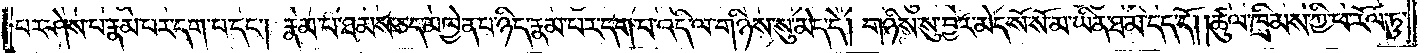པར་ཤེས་པ་རྣམ་པར་དག་པ་དང༌། རྣམ་པ་ཐམས་ཅད་མཁྱེན་པ་ཉིད་རྣམ་པར་དག་པ་འདི་ལ་གཉིས་སུ་མེད་དེ། གཉིས་སུ་བྱར་མེད་སོ་སོ་མ་ཡིན་ཐ་མི་དད་དོ། །ཚུལ་ཁྲིམས་ཀྱི་ཕ་རོལ་ཏུ་
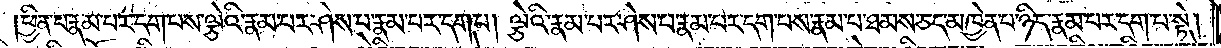ཕྱིན་པ་རྣམ་པར་དག་པས་ལྕེའི་རྣམ་པར་ཤེས་པ་རྣམ་པར་དག་པ། ལྕེའི་རྣམ་པར་ཤེས་པ་རྣམ་པར་དག་པས་རྣམ་པ་ཐམས་ཅད་མཁྱེན་པ་ཉིད་རྣམ་པར་དག་པ་སྟེ།
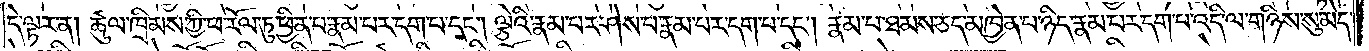དེ་ལྟར་ན། ཚུལ་ཁྲིམས་ཀྱི་ཕ་རོལ་ཏུ་ཕྱིན་པ་རྣམ་པར་དག་པ་དང༌། ལྕེའི་རྣམ་པར་ཤེས་པ་རྣམ་པར་དག་པ་དང༌། རྣམ་པ་ཐམས་ཅད་མཁྱེན་པ་ཉིད་རྣམ་པར་དག་པ་འདི་ལ་གཉིས་སུ་མེད་
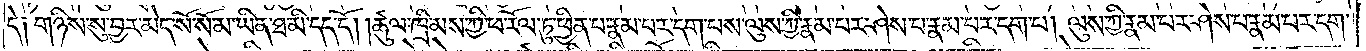དེ༑ གཉིས་སུ་བྱར་མེད་སོ་སོ་མ་ཡིན་ཐ་མི་དད་དོ། །ཚུལ་ཁྲིམས་ཀྱི་ཕ་རོལ་ཏུ་ཕྱིན་པ་རྣམ་པར་དག་པས་ལུས་ཀྱི་རྣམ་པར་ཤེས་པ་རྣམ་པར་དག་པ། ལུས་ཀྱི་རྣམ་པར་ཤེས་པ་རྣམ་པར་དག་
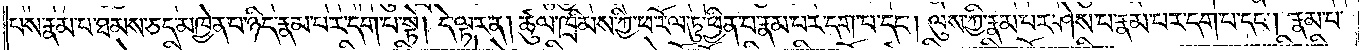པས་རྣམ་པ་ཐམས་ཅད་མཁྱེན་པ་ཉིད་རྣམ་པར་དག་པ་སྟེ། དེ་ལྟར་ན། ཚུལ་ཁྲིམས་ཀྱི་ཕ་རོལ་ཏུ་ཕྱིན་པ་རྣམ་པར་དག་པ་དང༌། ལུས་ཀྱི་རྣམ་པར་ཤེས་པ་རྣམ་པར་དག་པ་དང༌། རྣམ་པ་
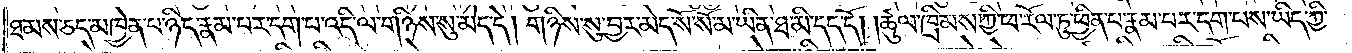ཐམས་ཅད་མཁྱེན་པ་ཉིད་རྣམ་པར་དག་པ་འདི་ལ་གཉིས་སུ་མེད་དེ། གཉིས་སུ་བྱར་མེད་སོ་སོ་མ་ཡིན་ཐ་མི་དད་དོ། །ཚུལ་ཁྲིམས་ཀྱི་ཕ་རོལ་ཏུ་ཕྱིན་པ་རྣམ་པར་དག་པས་ཡིད་ཀྱི་
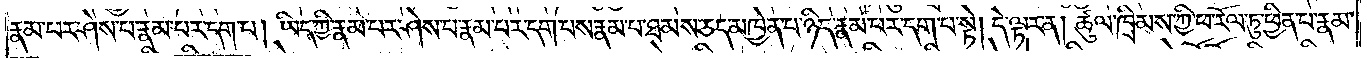རྣམ་པར་ཤེས་པ་རྣམ་པར་དག་པ། ཡིད་ཀྱི་རྣམ་པར་ཤེས་པ་རྣམ་པར་དག་པས་རྣམ་པ་ཐམས་ཅད་མཁྱེན་པ་ཉིད་རྣམ་པར་དག་པ་སྟེ། དེ་ལྟར་ན། ཚུལ་ཁྲིམས་ཀྱི་ཕ་རོལ་ཏུ་ཕྱིན་པ་རྣམ་
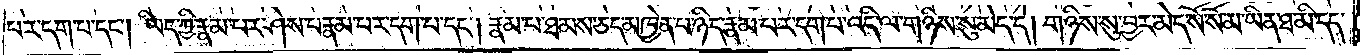པར་དག་པ་དང༌། ཡིད་ཀྱི་རྣམ་པར་ཤེས་པ་རྣམ་པར་དག་པ་དང༌། རྣམ་པ་ཐམས་ཅད་མཁྱེན་པ་ཉིད་རྣམ་པར་དག་པ་འདི་ལ་གཉིས་སུ་མེད་དེ། གཉིས་སུ་བྱར་མེད་སོ་སོ་མ་ཡིན་ཐ་མི་དད་
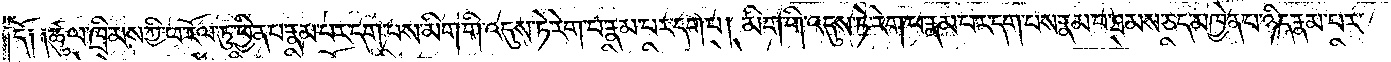དོ༑ ༑ཚུལ་ཁྲིམས་ཀྱི་ཕ་རོལ་ཏུ་ཕྱིན་པ་རྣམ་པར་དག་པས་མིག་གི་འདུས་ཏེ་རེག་པ་རྣམ་པར་དག་པ། མིག་གི་འདུས་ཏེ་རེག་པ་རྣམ་པར་དག་པས་རྣམ་པ་ཐམས་ཅད་མཁྱེན་པ་ཉིད་རྣམ་པར་
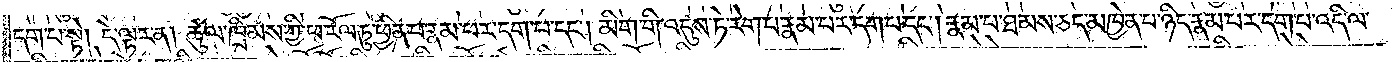དག་པ་སྟེ། དེ་ལྟར་ན། ཚུལ་ཁྲིམས་ཀྱི་ཕ་རོལ་ཏུ་ཕྱིན་པ་རྣམ་པར་དག་པ་དང༌། མིག་གི་འདུས་ཏེ་རེག་པ་རྣམ་པར་དག་པ་དང༌། རྣམ་པ་ཐམས་ཅད་མཁྱེན་པ་ཉིད་རྣམ་པར་དག་པ་འདི་ལ་
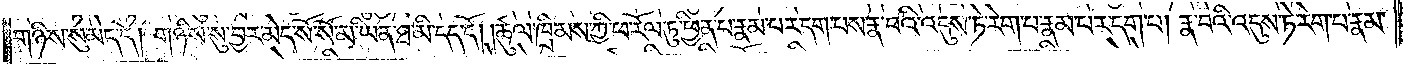གཉིས་སུ་མེད་དེ། གཉིས་སུ་བྱར་མེད་སོ་སོ་མ་ཡིན་ཐ་མི་དད་དོ། །ཚུལ་ཁྲིམས་ཀྱི་ཕ་རོལ་ཏུ་ཕྱིན་པ་རྣམ་པར་དག་པས་རྣ་བའི་འདུས་ཏེ་རེག་པ་རྣམ་པར་དག་པ། རྣ་བའི་འདུས་ཏེ་རེག་པ་རྣམ་
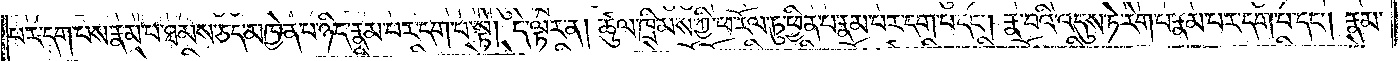པར་དག་པས་རྣམ་པ་ཐམས་ཅད་མཁྱེན་པ་ཉིད་རྣམ་པར་དག་པ་སྟེ། དེ་ལྟར་ན། ཚུལ་ཁྲིམས་ཀྱི་ཕ་རོལ་ཏུ་ཕྱིན་པ་རྣམ་པར་དག་པ་དང༌། རྣ་བའི་འདུས་ཏེ་རེག་པ་རྣམ་པར་དག་པ་དང༌། རྣམ་
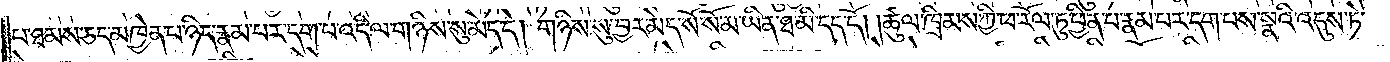པ་ཐམས་ཅད་མཁྱེན་པ་ཉིད་རྣམ་པར་དག་པ་འདི་ལ་གཉིས་སུ་མེད་དེ། གཉིས་སུ་བྱར་མེད་སོ་སོ་མ་ཡིན་ཐ་མི་དད་དོ། །ཚུལ་ཁྲིམས་ཀྱི་ཕ་རོལ་ཏུ་ཕྱིན་པ་རྣམ་པར་དག་པས་སྣའི་འདུས་ཏེ་
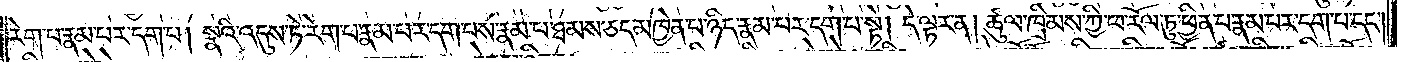རེག་པ་རྣམ་པར་དག་པ། སྣའི་འདུས་ཏེ་རེག་པ་རྣམ་པར་དག་པས་རྣམ་པ་ཐམས་ཅད་མཁྱེན་པ་ཉིད་རྣམ་པར་དག་པ་སྟེ། དེ་ལྟར་ན། ཚུལ་ཁྲིམས་ཀྱི་ཕ་རོལ་ཏུ་ཕྱིན་པ་རྣམ་པར་དག་པ་དང༌།
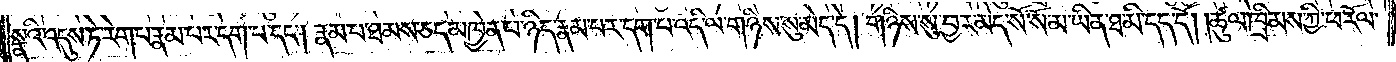སྣའི་འདུས་ཏེ་རེག་པ་རྣ་པར་དག་པ་དང༌། རྣམ་པ་ཐམས་ཅད་མཁྱེན་པ་ཉིད་རྣམ་པར་དག་པ་འདི་ལ་གཉིས་སུ་མེད་དེ། གཉིས་སུ་བྱར་མེད་སོ་སོ་མ་ཡིན་ཐ་མི་དད་དོ། །ཚུལ་ཁྲིམས་ཀྱི་ཕ་རོལ་
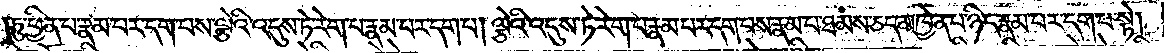ཏུ་ཕྱིན་པ་རྣམ་པར་དག་པས་ལྕེའི་འདུས་ཏེ་རེག་པ་རྣམ་པར་དག་པ། ལྕེའི་འདུས་ཏེ་རེག་པ་རྣམ་པར་དག་པས་རྣམ་པ་ཐམས་ཅད་མཁྱེན་པ་ཉིད་རྣམ་པར་དག་པ་སྟེ།
